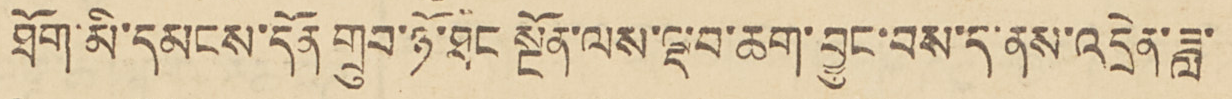ཐོག་མི་དམངས་དོན་གྲུབ་ཉོ་ཐང་སྔོན་ལས་ལྡབ་ཆག་བྱུང་བས་ད་ནས་འདྲེན་ཟླ་
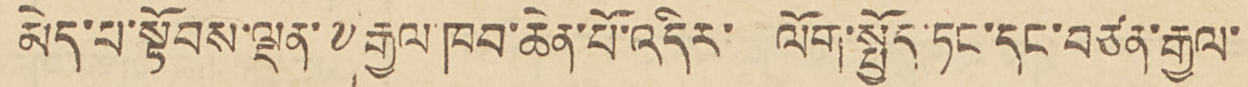མེད་པ་སྟོབས་ལྡན་༸རྒྱལ་ཁབ་ཆེན་པོ་འདིར་ལོག་སྤྱོད་ཏང་དང་བཙན་རྒྱལ་
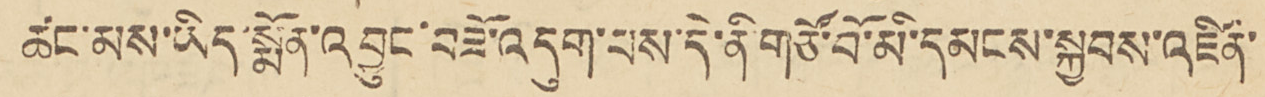ཚང་མས་ཡིད་སྨོན་འབྱུང་བཟོ་འདུག་པས་དེ་ནི་གཙོ་བོ་མི་དམངས་སྐྱབས་འཛིན་
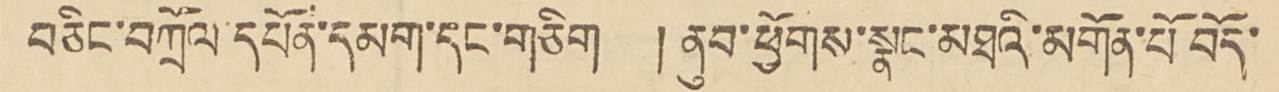བཅིང་བཀྲོལ་དཔོན་དམག་དང་གཅིག །ནུབ་ཕྱོགས་སྣང་མཐའི་མགོན་པོ་བོད་
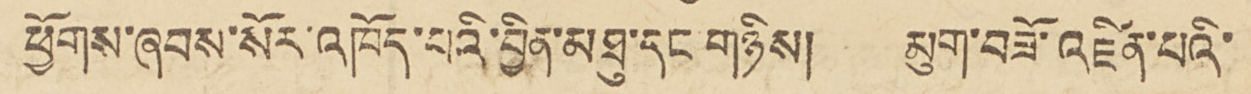ཕྱོགས་ཞབས་སོར་འཁོད་པའི་བྱིན་མཐུ་དང་གཉིས། མུག་བཟོ་འཛིན་པའི་
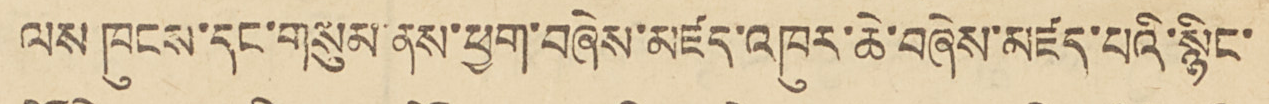ལས་ཁུངས་དང་གསུམ་ནས་ཕྱག་བཞེས་མཛད་འཁུར་ཆེ་བཞེས་མཛད་འཁུར་ཆེ་བཞེས་མཛད་པའི་སྙིང་
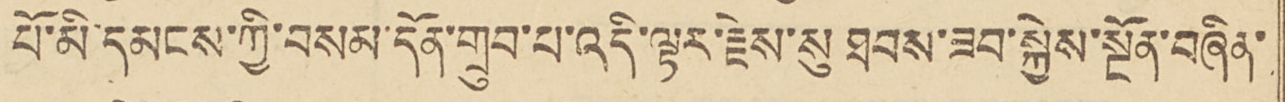པོ་མི་དམངས་ཀྱི་བསམ་དོན་གྲུབ་པ་འདི་ལྟར་རྗེས་སུ་ཐབས་ཟབ་སྐྱེས་སྔོན་བཞིན་
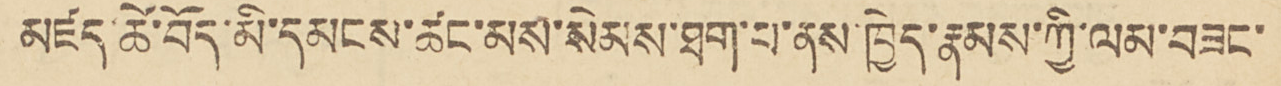མཛད་ཚེ་བོད་མི་དམངས་ཚང་མས་སེམས་ཐག་པ་ནས་ཁྱེད་རྣམས་ཀྱི་ལམ་བཟང་
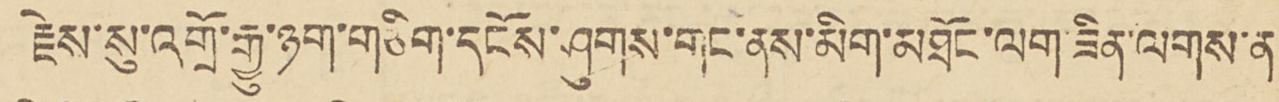རྗེས་སུ་འགྲོ་རྒྱུ་ཉག་གཅིག་དངོས་ཤུགས་གང་ནས་མིག་མཐོང་ལག་ཟིན་ལགས་ན་
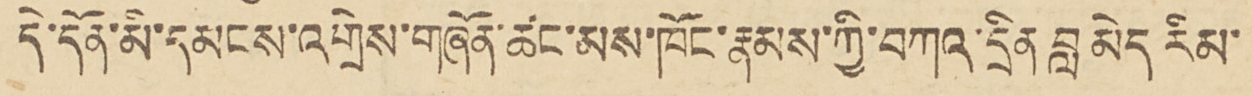དེ་དོན་མི་དམངས་འགྲེས་གཞོན་ཚང་མས་ཁོང་རྣམས་ཀྱི་བཀའ་དྲིན བླ མེད རིམ་
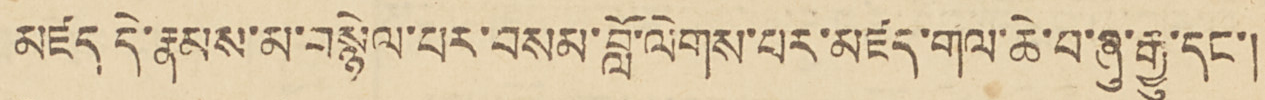མཛད དེ་རྣམས་མ་བསྙེལ་པར་བསམ་བློ་ལེགས་པར་མཛད་གལ་ཆེ་བ་ཞུ་རྒྱུ་དང་།
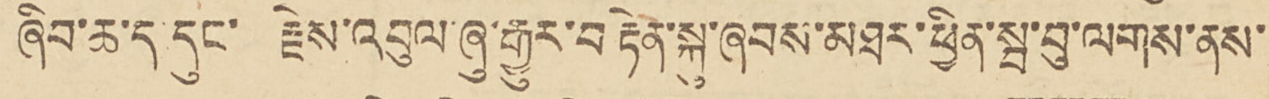ཞིབ་ཆ་ད་དུང་རྗེས་འབུལ་ཞུ་རྒྱུར་བརྟེན་སྐུ་ཞབས་མཐར་ཕྱིན་སྦ་བུ་ལགས་ནས་
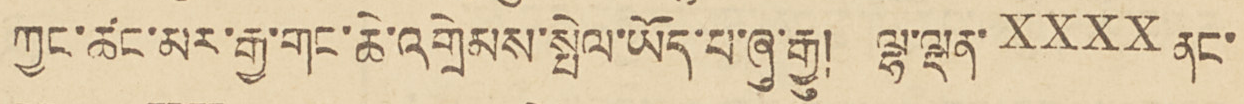ཀྱང་ཚང་མར་རྒྱ་གང་ཆེ་འགྲེམས་སྤེལ་ཡོད་པ་ཞུ་རྒྱུ། ལྷ་ལྡན་XXXX ནང་
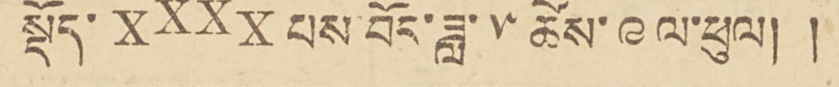སྡོད་ XXXX པས བོད་ཟླ་༥ ཚེས་ ༩ ལ་ཕུལ། །
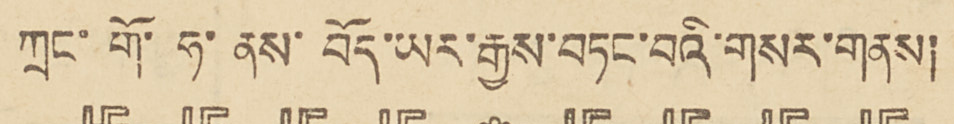ཀྲང་གོ་ཧ་ནས་བོད་ཡར་རྒྱས་བཏང་བའི་གསར་གནས།
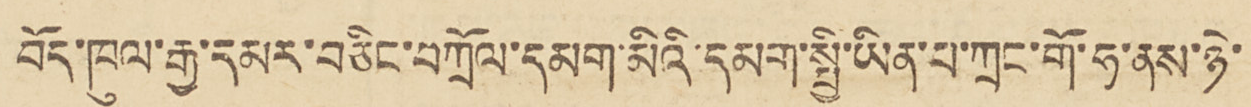བོད་ཁུལ་རྒྱ་དམར་བཅིང་བཀྲོལ་དམག་མིའི་དམག་སྤྱི་ཡིན་པ་ཀྲང་གོ་ཧ་ནས་ཉེ་
